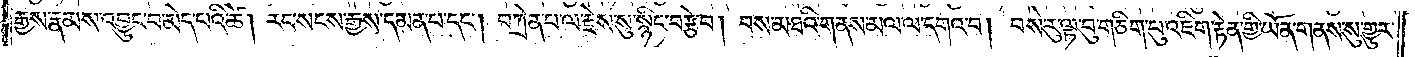རྒྱས་རྣམས་འབྱུང་བ་མེད་པའི་ཚེ། རང་སངས་རྒྱས་དམན་པ་དང༌། བཀྲེན་པ་ལ་རྗེས་སུ་སྙིང་བརྩེ་བ། བས་མཐའི་གནས་མལ་ལ་དགའ་བ། བསེ་རུ་ལྟ་བུ་གཅིག་པུ་འཇིག་རྟེན་གྱི་ཡོན་གནས་སུ་གྱུར་
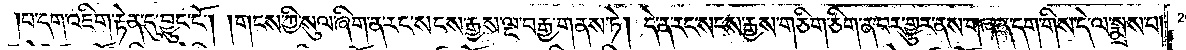པ་དག་འཇིག་རྟེན་དུ་བྱུང་ངོ༌། །གངས་ཀྱི་སུལ་ཞིག་ན་རང་སངས་རྒྱས་ལྔ་བརྒྱ་གནས་ཏེ། དེ་ན་རང་སངས་རྒྱས་གཅིག་ཅིག་ན་བར་གྱུར་ནས་གཞན་དག་གིས་དེ་ལ་སྨྲས་པ།
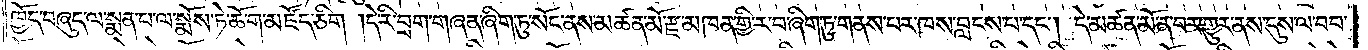ཁྱོད་བཞུད་ལ་སྨན་པ་ལ་སྨོས་ཏེ་ཆོ་ག་མཛོད་ཅིག །དེ་རི་བྲག་གཞན་ཞིག་ཏུ་སོང་ནས་མཚན་མོ་རྫ་མཁན་གྱི་ར་བ་ཞིག་ཏུ་གནས་པར་ཁས་བླངས་པ་དང༌། དེ་མཚན་མོ་ན་བར་གྱུར་ནས་དུས་ལ་བབ་
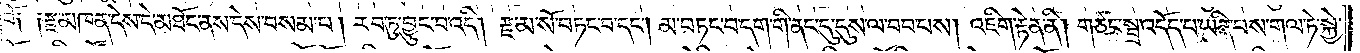བོ༑ ༑རྫ་མཁན་དེས་དེ་མཐོང་ནས་དེས་བསམ་པ། རབ་ཏུ་བྱུང་བ་འདི། རྫ་མ་སོ་བཏང་བ་དང༌། མ་བཏང་བ་དག་གི་ནང་དུ་དུས་ལ་བབ་པས། འཇིག་རྟེན་ནི། གཙང་སྦྲ་འདོད་པ་ཡིན་པས་གལ་ཏེ་སྐྱེ་
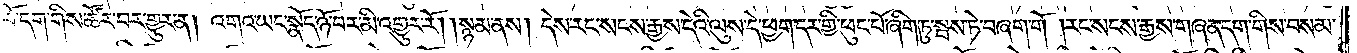བོ་དག་གིས་ཚོར་བར་གྱུར་ན། འགའ་ཡང་སྣོད་ཉོ་བར་མི་འགྱུར་རོ། །སྙམ་ནས། དེས་རང་སངས་རྒྱས་དེའི་ལུས་དེ་ཕྱག་དར་གྱི་ཕུང་པོ་ཞིག་ཏུ་སྦས་ཏེ་བཞག་གོ །རང་སངས་རྒྱས་གཞན་དག་གིས་བསམ་
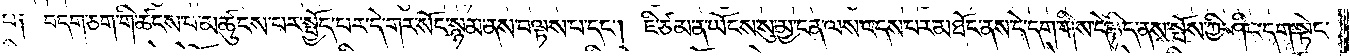པ༑ བདག་ཅག་གི་ཚངས་པ་མཚུངས་པར་སྤྱོད་པར་དེ་གར་སོང་སྙམ་ནས་བལྟས་པ་དང༌། ཇི་ཙམ་ན་ཡོངས་སུ་མྱ་ངན་ལས་འདས་པར་མཐོང་ནས་དེ་དག་གིས་དེ་ཉིད་ནས་སྤོས་ཀྱི་ཤིང་དག་སྟེང་
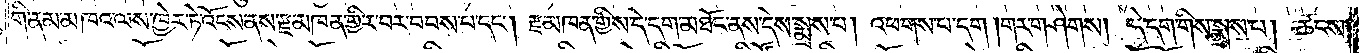གི་ནམ་མཁའ་ལས་ཁྱེར་ཏེ་འོངས་ནས་རྫ་མཁན་གྱི་ར་བར་བབས་པ་དང༌། རྫ་མཁན་གྱིས་དེ་དག་མཐོང་ནས་དེས་སྨྲས་པ། འཕགས་པ་དག །གར་གཤེགས། དེ་དག་གིས་སྨྲས་པ། ཚངས་
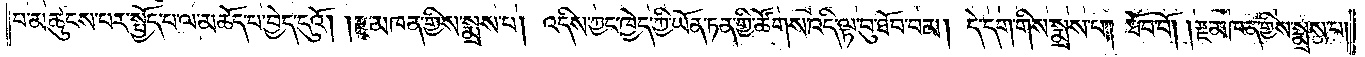པ་མཚུངས་པར་སྤྱོད་པ་ལ་མཆོད་པ་བྱེད་དུའོ། །རྫ་མཁན་གྱིས་སྨྲས་པ། འདིས་ཀྱང་ཁྱེད་ཀྱི་ཡོན་ཏན་གྱི་ཚོགས་འདི་ལྟ་བུ་ཐོབ་བམ། དེ་དག་གིས་སྨྲས་པ། ཐོབ་བོ། །རྫ་མཁན་གྱིས་སྨྲས་པ།
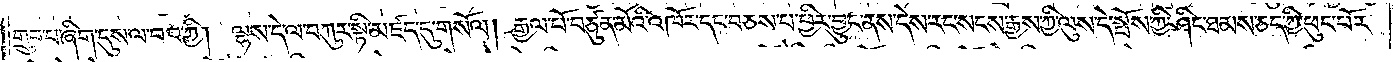གྲུབ་པ་ཞིག་དུས་ལ་བབ་ཀྱི། ལྷས་དེ་ལ་བཀུར་སྟི་མཛད་དུ་གསོལ། རྒྱལ་པོ་བཙུན་མོའི་འཁོར་དང་བཅས་པ་ཕྱིར་བྱུང་ནས་དེས་རང་སངས་རྒྱས་ཀྱི་ལུས་དེ་སྤོས་ཀྱི་ཤིང་ཐམས་ཅད་ཀྱི་ཕུང་པོར་
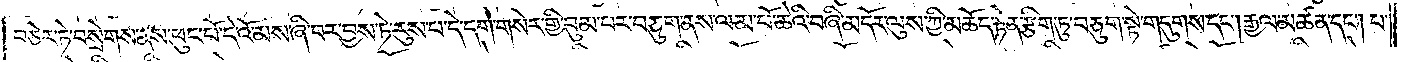བཅེར་ཏེ་བསྲེགས་ནས་ཕུང་པོ་དེ་འོ་མས་ཞི་བར་བྱས་ཏེ་རུས་པ་དེ་དག་གསེར་གྱི་བུམ་པར་བཅུག་ནས་ལམ་པོ་ཆེའི་བཞི་མདོར་ལུས་ཀྱི་མཆོད་རྟེན་རྩིག་ཏུ་བཅུག་སྟེ་གདུགས་དང༌། རྒྱལ་མཚན་དང༌། པ་
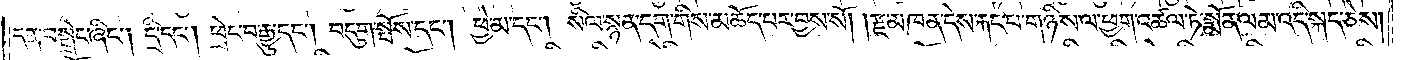དན་བསྒྲེང་ཞིང༌། དྲི་དང༌། ཕྲེང་བ་རྒྱུ་དང༌། བདུག་སྤོས་དང༌། ཕྱེ་མ་དང༌། སིལ་སྙན་དག་གིས་མཆོད་པར་བྱས་སོ། །རྫ་མཁན་དེས་རྐང་པ་གཉིས་ལ་ཕྱག་འཚལ་ཏེ་སྨོན་ལམ་འདི་སྐད་ཅེས།
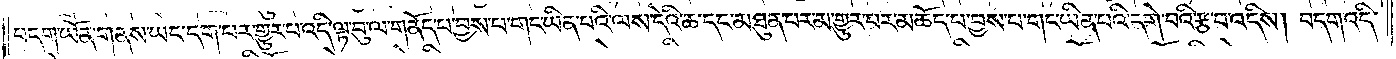བདག་ཡོན་གནས་ཡང་དག་པར་གྱུར་པ་འདི་ལྟ་བུ་ལ་གནོད་པ་བྱས་པ་གང་ཡིན་པའི་ལས་དེའི་ཆ་དང་མཐུན་པར་མ་གྱུར་པར་མཆོད་པ་བྱས་པ་གང་ཡིན་པའི་དགེ་བའི་རྩ་བ་འདིས། བདག་འདི་
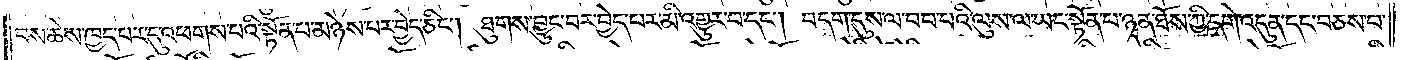བས་ཆེས་ཁྱད་པར་དུ་འཕགས་པའི་སྟོན་པ་མཉེས་པར་བྱེད་ཅིང༌། ཐུགས་བྱུང་བར་བྱེད་པར་མི་འགྱུར་བ་དང༌། བདག་དུས་ལ་བབ་པའི་ལུས་ལ་ཡང་སྟོན་པ་ཉན་ཐོས་ཀྱི་དགེ་འདུན་དང་བཅས་པ་
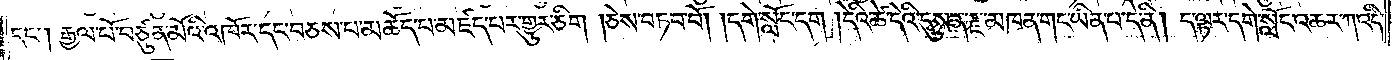དང་། རྒྱལ་པོ་བཙུན་མོའི་འཁོར་དང་བཅས་པ་མཆོད་པ་མཛད་པར་གྱུར་ཅིག །ཅེས་བཏབ་བོ། །དགེ་སློང་དག །དེའི་ཚེ་དེའི་དུས་ན་རྫ་མཁན་གང་ཡིན་པ་དེ་ནི། ད་ལྟར་དགེ་སློང་འཆར་ཀ་འདི་
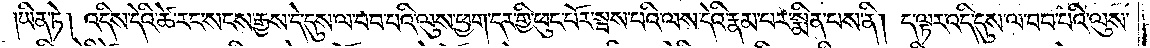།ཡིན་ཏེ། འདིས་དེའི་ཚེ་རང་སངས་རྒྱས་དེ་དུས་ལ་བབ་པའི་ལུས་ཕྱག་དར་གྱི་ཕུང་པོར་སྦས་པའི་ལས་དེའི་རྣམ་པར་སྨིན་པས་ནི། ད་ལྟར་འདི་དུས་ལ་བབ་པའི་ལུས་
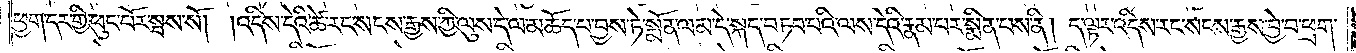ཕྱག་དར་གྱི་ཕུང་པོར་སྦས་སོ། །འདིས་དེའི་ཚེ་རང་སངས་རྒྱས་ཀྱི་ལུས་དེ་ལ་མཆོད་པ་བྱས་ཏེ་སྨོན་ལམ་དེ་སྐད་བཏབ་པའི་ལས་དེའི་རྣམ་པར་སྨིན་པས་ནི། ད་ལྟར་འདིས་རང་སངས་རྒྱས་བྱེ་བ་ཕྲག་
